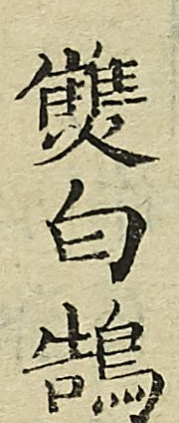雙白鵠
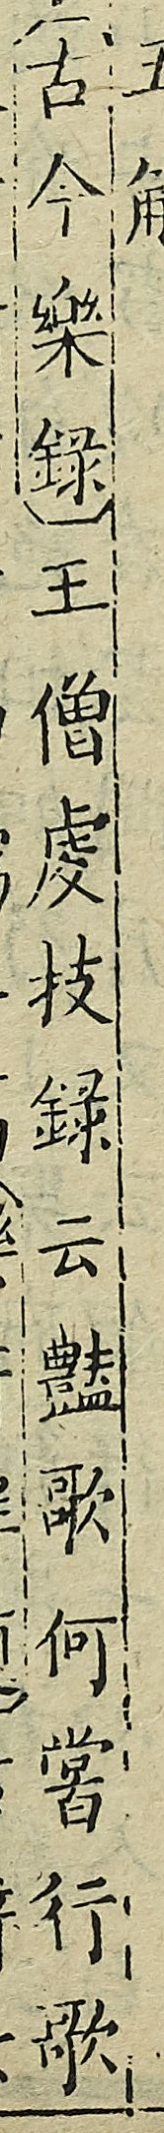（古今樂錄）王僧虔技錄云豔歌何嘗行歌
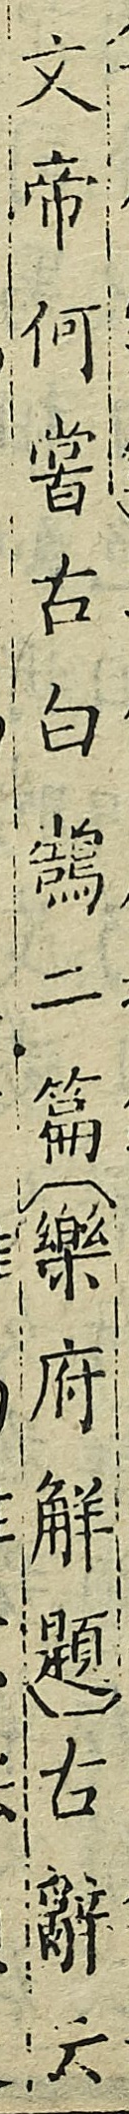文帝何嘗古白鵠二篇（樂府解題）古辭天
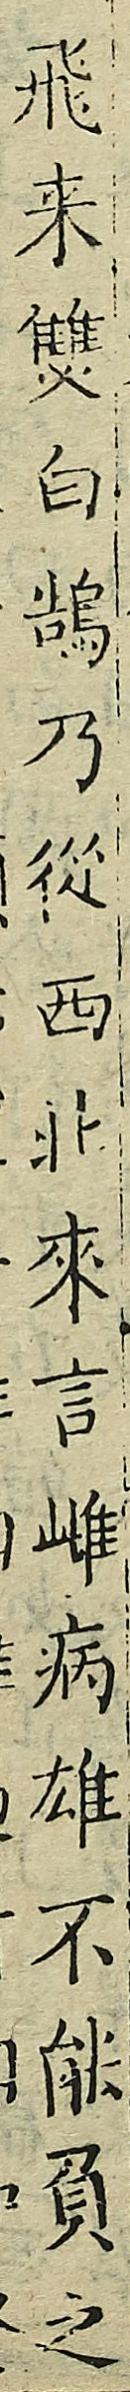飛來雙白鵠乃從西北雌病雄不能負之
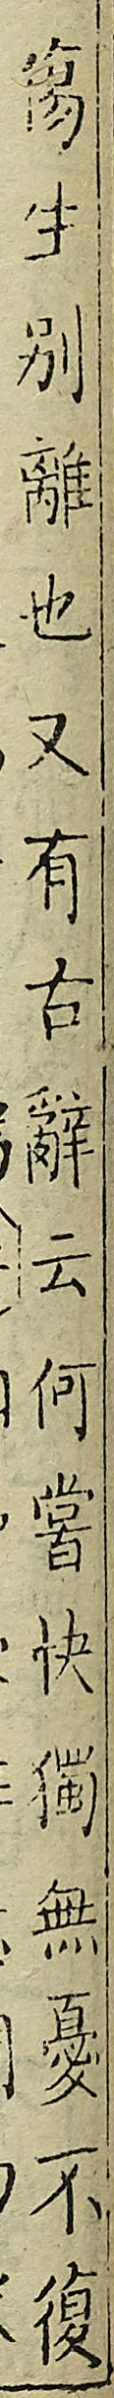傷生別離也又有古辭云何嘗快獨無優不復
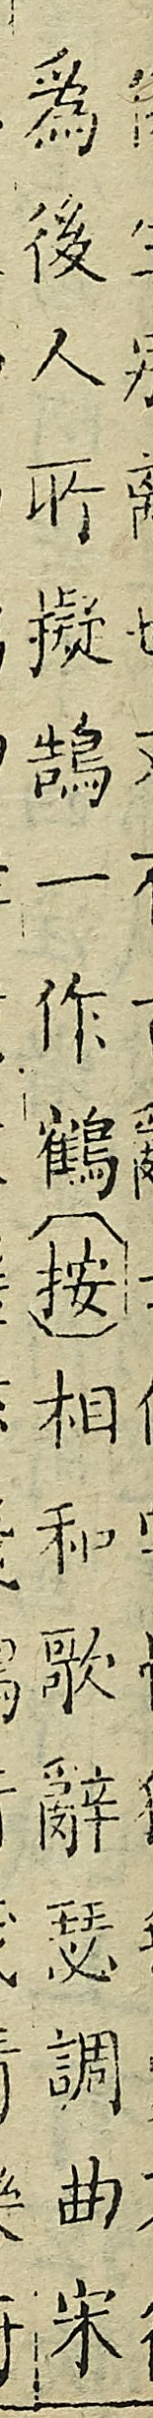為後人所擬鵠一作鶴（按）相和歌辭瑟調曲宋
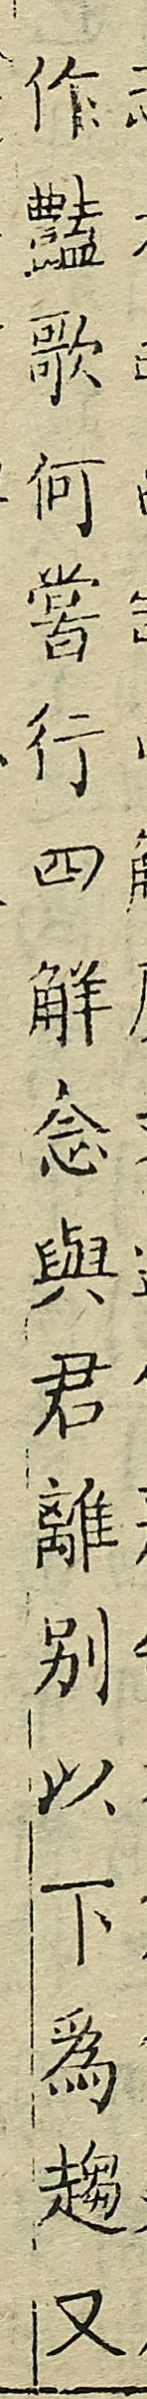作豔歌何嘗行四解念與君離別以下為趨又
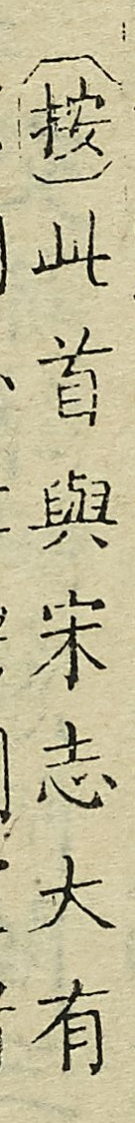（按）此首與宋志大有
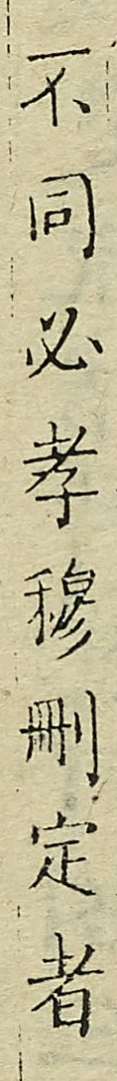不同必孝穆刪定者
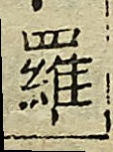羅
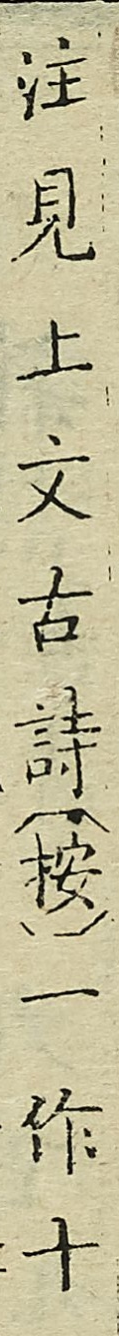注見上文古詩（按）一作十
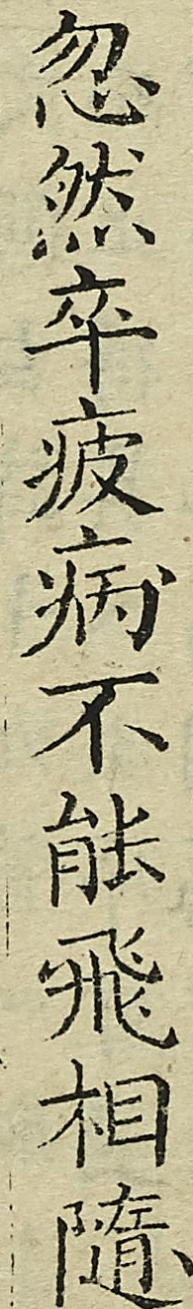忽然卒疲病不能飛相隨
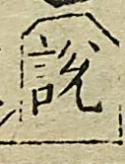（說
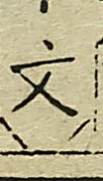文）
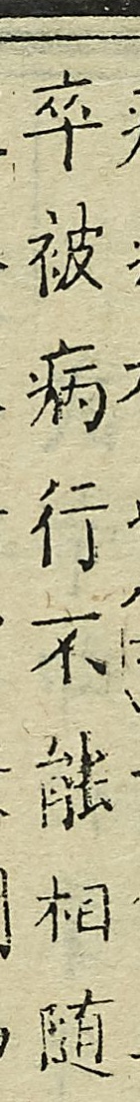卒被病行不能相隨
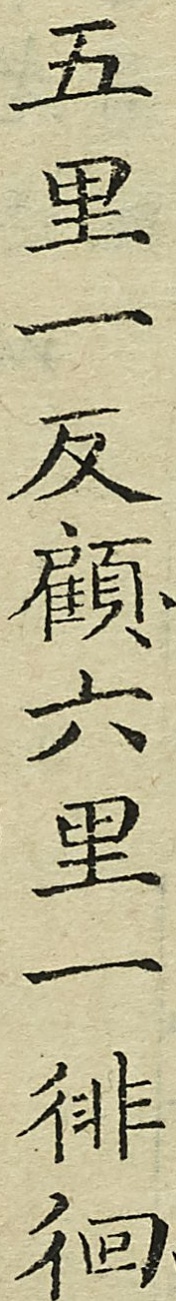五里一反顧六里一徘徊
